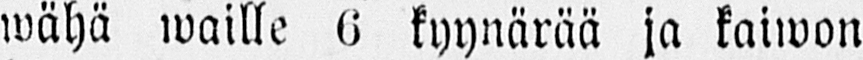wähä waille 6 kyynärää ja kaiwon
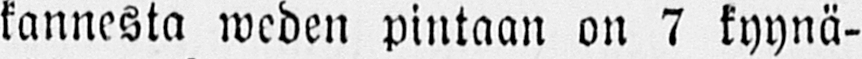kannesta weden pintaan on 7 kyynä-
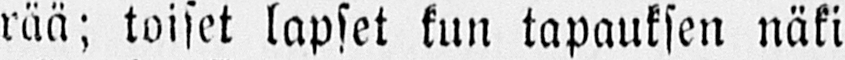rää; toiset lapset kun tapauksen näki
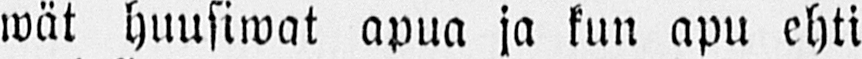wät huusiwat apua ja kun apu ehti
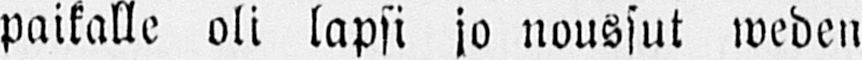paikalle oli lapsi jo noussut weden
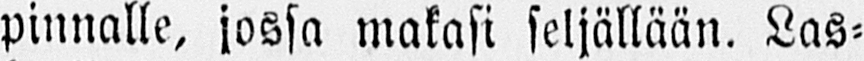pinnalle, jossa makasi seljällään. Las-
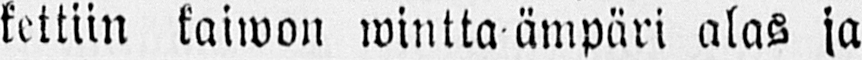kettiin kaiwon wintta ämpäri alas ja
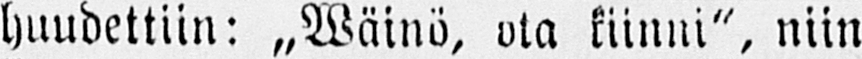huudettiin: „Wäinö, ota kiinni", niin
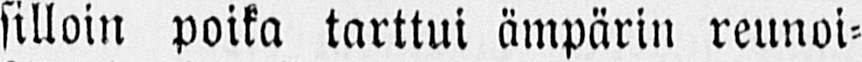silloin poika tarttui ämpärin reunoi-
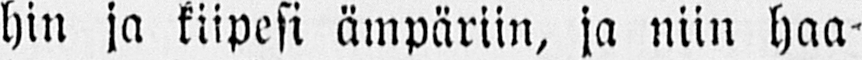hin ja kiipesi ämpäriin, ja niin haa-
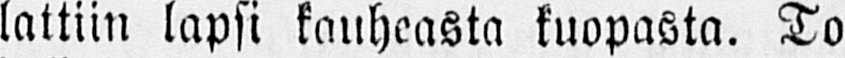lattiin lapsi kauheasta kuopasta. To-
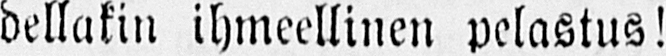dellakin ihmeellinen pelastus!
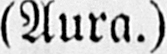(Aura.)
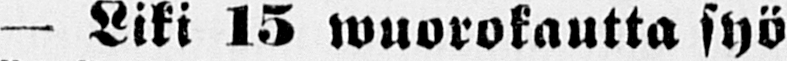— Liki 15 wuorokautta syö-
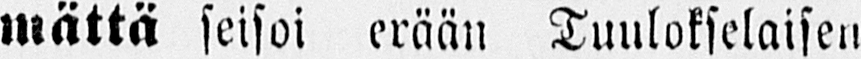mättä seisoi erään Tuulokselaisen
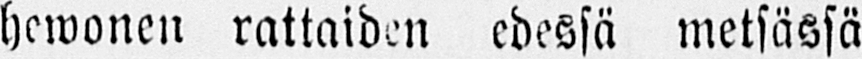hewonen rattaiden edessä metsässä
